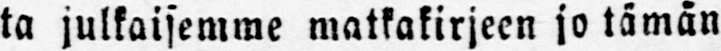ta julkaisemme matkakirjeen jo tämän
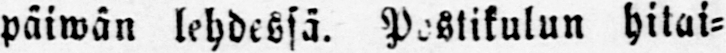päiwän lehdessä. Postikulun hitai-
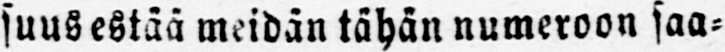suus estää meidän tähän numeroon saa-
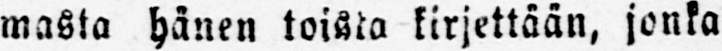masta hänen toista kirjettään, jonka
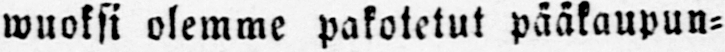wuoksi olemme pakotetut pääkaupun-
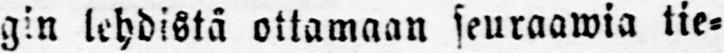gin lehdistä ottamaan seuraawia tie-
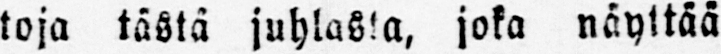toja tästä juhlasta, joka näyttää
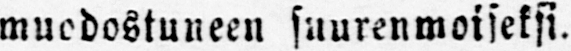muodostuneen saurenmoiseksi.
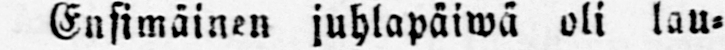Ensimäinen juhlapäiwä oli lau-
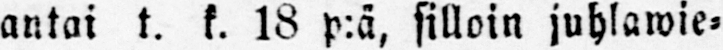antai t. k. 18 p:ä, silloin juhlawie-
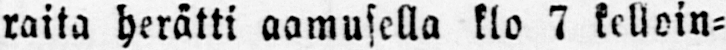raita herätti aamusella klo 7 kelloin-
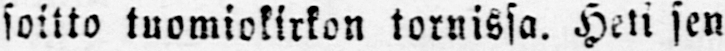soitto tuomiokirkon tornissa. Heti sen
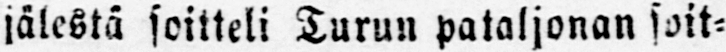jälestä soitteli Turun pataljonan soit-
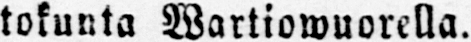tokunta Wartiowuorella.
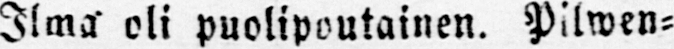Ilma oli puolipoutainen. Pilwen-
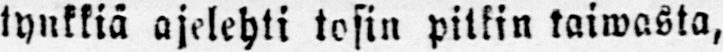tynkkiä ajelehti tosin pitkin taiwasta,
